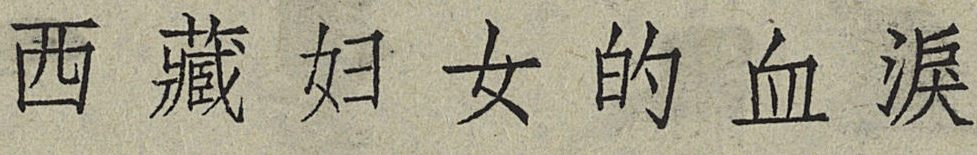西 藏 妇 女 的 血 淚
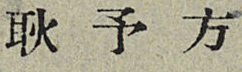耿予方
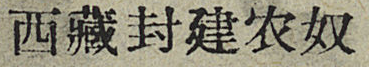西藏封建农奴
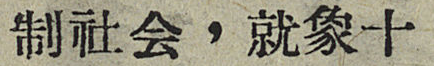制社会，就象十
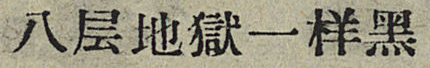八层地獄一样黑
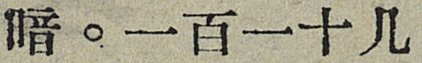暗。一百一十几
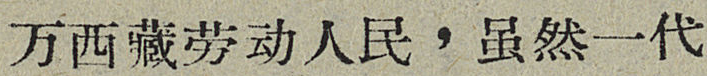万西藏劳动人民，虽然一代
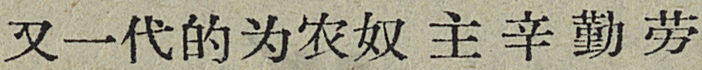又一代的为农奴主辛勤劳
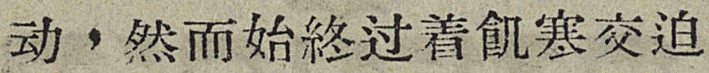动，然而始終过着飢寒交迫
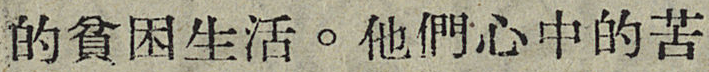的貧困生活。他們心中的苦
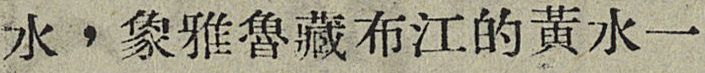水，象雅魯藏布江的黃水一
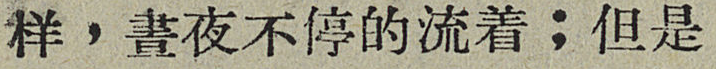样，晝夜不停的流着；但是
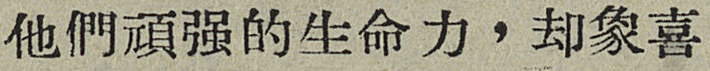他們頑强的生命力，却象喜
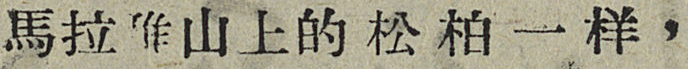馬拉雅山上的松柏一样，
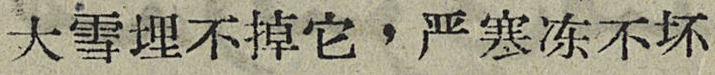大雪埋不掉它，严寒冻不坏
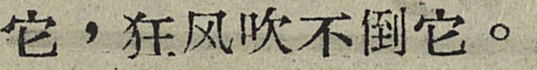它，狂风吹不倒它。
